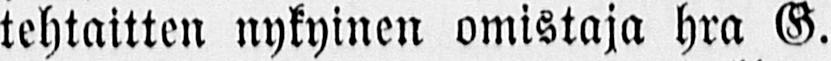tehtaitten nykyinen omistaja hra G.
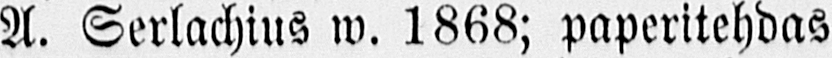A. Serlachius w. 1868; paperitehdas
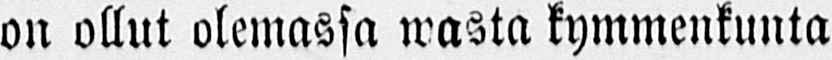on ollut olemassa wasta kymmenkunta
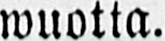wuotta.
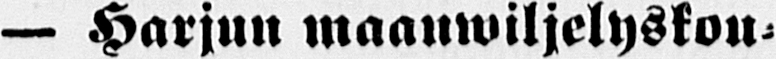— Harjun maanwiljelyskou-
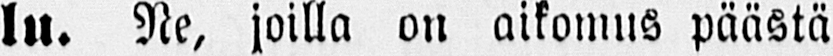lu. Ne, joilla on aikomus päästä
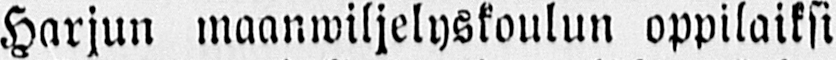Harjun maanwiljelyskoulun oppilaiksi
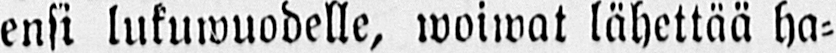ensi lukuwuodelle, woiwat lähettää ha-
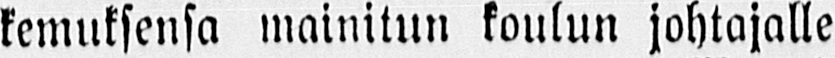kemuksensa mainitun koulun johtajalle
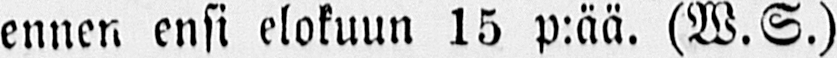ennen ensi elokuun 15 p:ää. (W.S.)
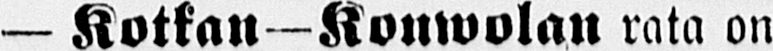— Kotkan—Konwolan rata on
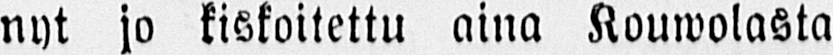nyt jo kiskoitettu aina Kouwolasta
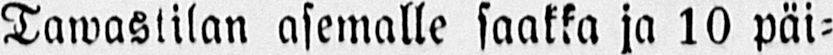Tawastilan asemalle saakka ja 10 päi-
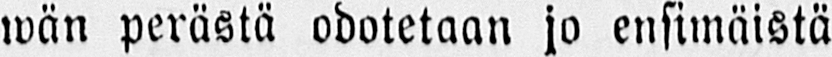wän perästä odotetaan jo ensimäistä
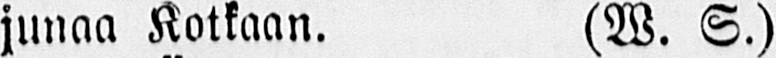junaa Kotkaan. (W. S.)
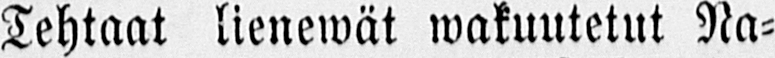Tehtaat lienewät wakuutetut Na-
